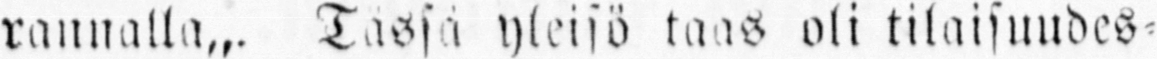rannalla˶. Tässä yleisö taas oli tilaisuudes-
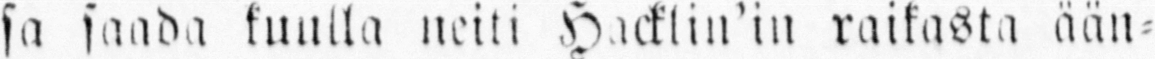sa saada kuulla neiti Hacklin'in raikasta ään-
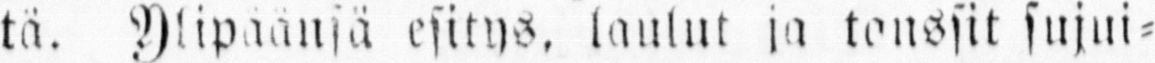tä. Ylipäänsä esitys, laulut ja tanssit sujui-
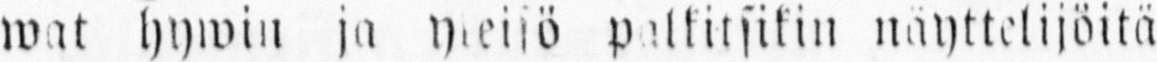wat hywin ja yleisö palkitsikin näyttelijöitä
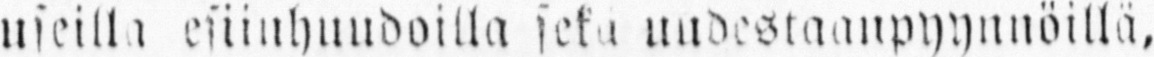useilla esiinhuudoilla sekä uudestaanpyynnöillä,
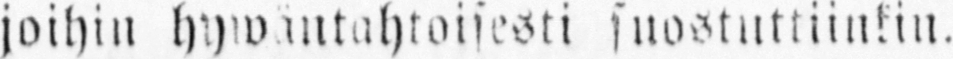joihin hywäntahtoisesti suostuttiinkin.
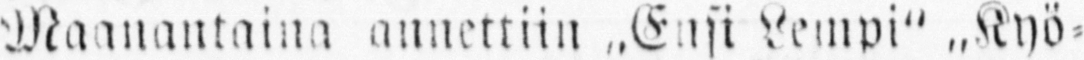Maanantaina annettiin ˶Ensi Lempi" „Kyö-
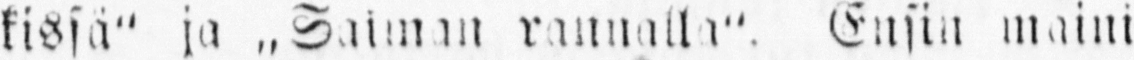kissä" ja „Saiman rannalla". Ensin maini
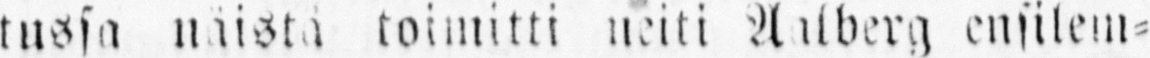tussa näistä toimitti neiti Aalberg ensilem-
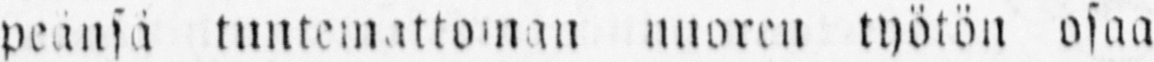peänsä tuntemattoman nuoren työtön osaa
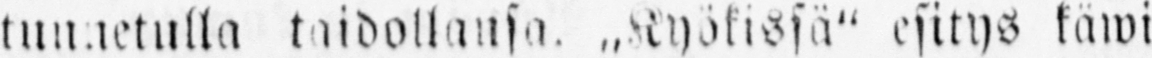tunnetulla taidollansa. ˶Kyökissä" esityö käwi
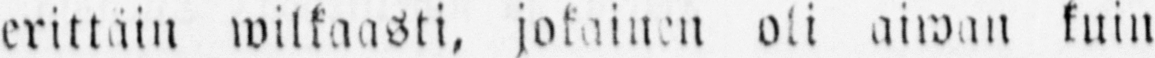erittäin wilkaasti, jokainen oli aiwan kuin
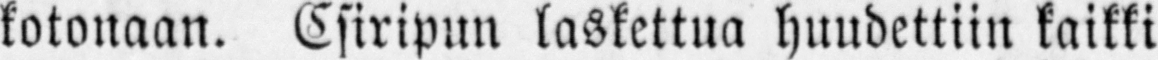kotonaan. Esiripun laskettua huudettiin kaikki
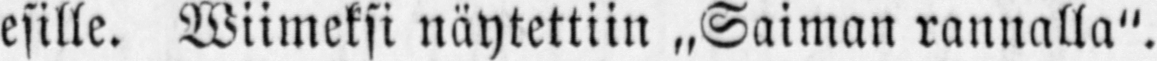esille. Wiimeksi näytettiin „Saiman rannalla",
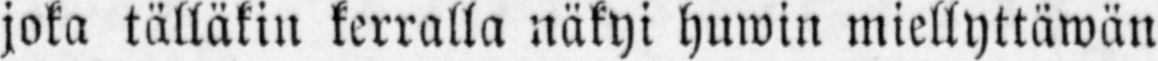joka tälläkin kerralla näkyi huwin miellyttäwän
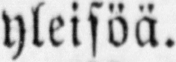yleisöä.
